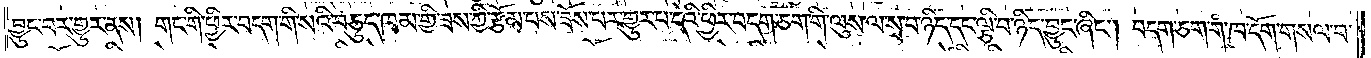བྱུང་བར་གྱུར་ནས། གང་གི་ཕྱིར་བདག་གི་སའི་བཅུད་ཁམ་གྱི་ཟས་ཀྱི་རྩོམ་པས་ཟོས་པར་གྱུར་པ་དེའི་ཕྱིར་བདག་ཅག་གི་ལུས་ལ་སྲ་བ་ཉིད་དང་ལྕི་བ་ཉིད་བྱུང་ཞིང༌། བདག་ཅག་གི་ཁ་དོག་གསལ་བ་
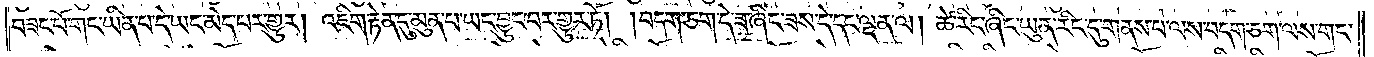བཟང་པོ་གང་ཡིན་པ་དེ་ཡང་མེད་པར་གྱུར། འཇིག་རྟེན་དུ་མུན་པ་ཡང་བྱུང་བར་གྱུར་ཏོ། །བདག་ཅག་དེ་ཟ་ཞིང་ཟས་དེ་དང་ལྡན་ལ། ཚེ་རིང་ཞིང་ཡུན་རིང་དུ་གནས་པ་ལས་བདག་ཅག་ལས་གང་
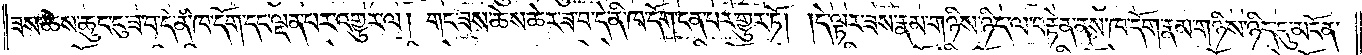ཟས་ཆེས་ཆུང་ངུ་ཟ་བ་དེ་ནི་ཁ་དོག་དང་ལྡན་པར་འགྱུར་ལ། གང་ཟས་ཆེས་ཆེར་ཟ་བ་དེ་ནི་ཁ་དོག་ངན་པར་གྱུར་ཏོ། །དེ་ལྟར་ཟས་རྣམ་གཉིས་ཉིད་ལ་བརྟེན་ནས་ཁ་དོག་རྣམ་གཉིས་ཉིད་དུ་མངོན་
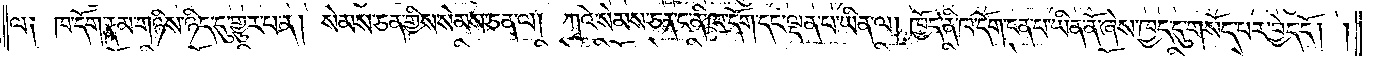ལ༑ ཁ་དོག་རྣམ་གཉིས་ཉིད་དུ་གྱུར་པ་ན། སེམས་ཅན་གྱིས་སེམས་ཅན་ལ། ཀྭའེ་སེམས་ཅན་ང་ནི་ཁ་དོག་དང་ལྡན་པ་ཡིན་ལ། ཁྱོད་ནི་ཁ་དོག་ངན་པ་ཡིན་ནོ་ཞེས་ཁྱད་དུ་གསོད་པར་བྱེད་དོ། །
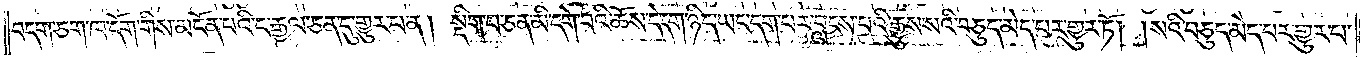བདག་ཅག་ཁ་དོག་གིས་མངོན་པའི་ང་རྒྱལ་ཅན་དུ་གྱུར་པ་ན། སྡིག་པ་ཅན་མི་དགེ་བའི་ཆོས་དེ་དག་ཉིད་ཡང་དག་པར་བླངས་པའི་རྒྱུས་སའི་བཅུད་མེད་པར་གྱུར་ཏོ། །སའི་བཅུད་མེད་པར་གྱུར་པ་
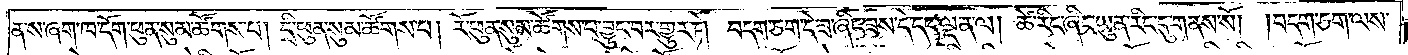ན་ས་ཞག་ཁ་དོག་ཕུན་སུམ་ཚོགས་པ། དྲི་ཕུན་སུམ་ཚོགས་པ། རོ་ཕུན་སུམ་ཚོགས་པ་བྱུང་བར་གྱུར་ཏེ། བདག་ཅག་དེ་ཟ་ཞིང་ཟས་དེ་དང་ལྡན་ལ། ཚེ་རིང་ཞིང་ཡུན་རིང་དུ་གནས་སོ། །བདག་ཅག་ལས་
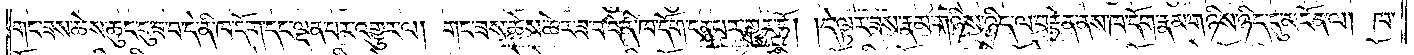གང་ཟས་ཆེས་ཆུང་ངུ་ཟ་བ་དེ་ནི་ཁ་དོག་དང་ལྡན་པར་འགྱུར་ལ། གང་ཟས་ཆེས་ཆེར་ཟ་བ་དེ་ནི་ཁ་དོག་ངན་པར་གྱུར་ཏོ། །དེ་ལྟར་ཟས་རྣམ་གཉིས་ཉིད་ལ་བརྟེན་ནས་ཁ་དོག་རྣམ་གཉིས་ཉིད་དུ་མངོན་ལ། ཁ་
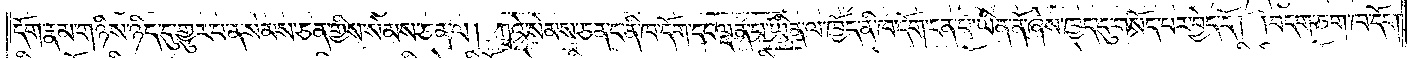དོག་རྣམ་གཉིས་ཉིད་དུ་གྱུར་པ་ན་སེམས་ཅན་གྱིས་སེམས་ཅན་ལ། ཀྭའི་སེམས་ཅན་ནང་ནི་ཁ་དོག་དང་ལྡན་པ་ཡིན་ལ་ཁྱོད་ནི་ཁ་དོག་ངན་པ་ཡིན་ནོ་ཞེས་ཁྱད་དུ་གསོད་པར་བྱེད་དོ། །བདག་ཅག་ཁ་དོག་
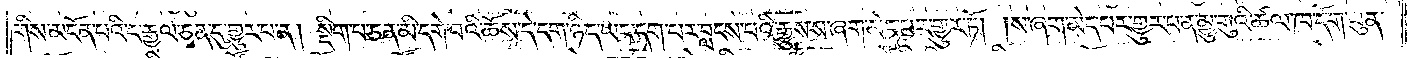གིས་མངོན་པའི་ང་རྒྱལ་ཅན་དུ་གྱུར་པ་ན། སྡིག་པ་ཅན་མི་དགེ་བའི་ཆོས་དེ་དག་ཉིད་ཡང་དག་པར་བླངས་པའི་རྒྱུས་ས་ཞག་མེད་པར་གྱུར་ཏོ། །ས་ཞག་མེད་པར་གྱུར་པ་ན་མྱུ་གུའི་ཚལ་ཁ་དོག་ཕུན་
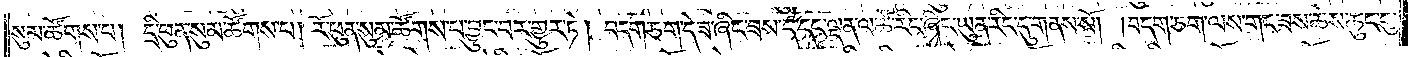སུམ་ཚོགས་པ། དྲི་ཕུན་སུམ་ཚོགས་པ། རོ་ཕུན་སུམ་ཚོགས་པ་བྱུང་བར་གྱུར་ཏེ། བདག་ཅག་དེ་ཟ་ཞིང་ཟས་དེ་དང་ལྡན་ལ་ཚེ་རིང་ཞིང་ཡུན་རིང་དུ་གནས་སོ། །བདག་ཅག་ལས་གང་ཟས་ཆེས་ཆུང་ངུ་
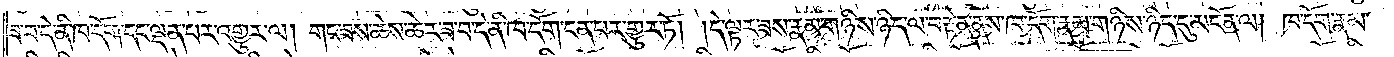ཟ་བ་དེ་ནི་ཁ་དོག་དང་ལྡན་པར་འགྱུར་ལ། གང་ཟས་ཆེས་ཆེར་ཟ་བ་དེ་ནི་ཁ་དོག་ངན་པར་གྱུར་ཏོ། །དེ་ལྟར་ཟས་རྣམ་གཉིས་ཉིད་ལ་བརྟེན་ནས་ཁ་དོག་རྣམ་གཉིས་ཉིད་དུ་མངོན་ལ། ཁ་དོག་རྣམ་
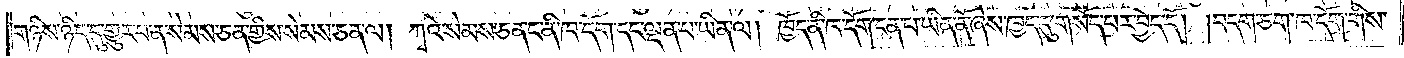གཉིས་ཉིད་དུ་གྱུར་པ་ན་སེམས་ཅན་གྱིས་སེམས་ཅན་ལ། ཀྭའི་སེམས་ཅན་ང་ནི་ཁ་དོག་དང་ལྡན་པ་ཡིན་ལ། ཁྱོད་ནི་ཁ་དོག་ངན་པ་ཡིན་ནོ་ཞེས་ཁྱད་དུ་གསོད་པར་བྱེད་དོ། །བདག་ཅག་ལ་ཁ་དོག་གིས་
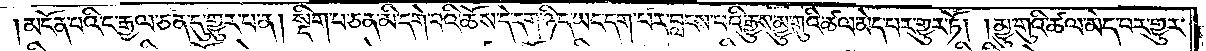མངོན་པའི་ང་རྒྱལ་ཅན་དུ་གྱུར་པ་ན། སྡིག་པ་ཅན་མི་དགེ་བའི་ཆོས་དེ་དག་ཉིད་ཡང་དག་པར་བླངས་པའི་རྒྱུས་མྱུ་གུའི་ཚལ་མེད་པར་གྱུར་ཏོ། །མྱུ་གུའི་ཚལ་མེད་པར་གྱུར་
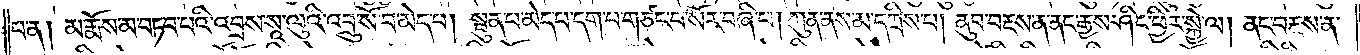བ་ན། མ་རྨོས་མ་བཏབ་པའི་འབྲས་སཱ་ལུའི་འབྲུ་སོ་བ་མེད་པ། སྦུན་པ་མེད་པ་དག་པ་གཙང་བ་སོར་བཞི་པ། ཀུན་ནས་མ་དཀྲིས་པ། ནུབ་བརྔས་ན་ནང་རྒྱས་ཤིང་ཕྱིར་སྐྱེ་ལ། ནང་བརྔས་ན་
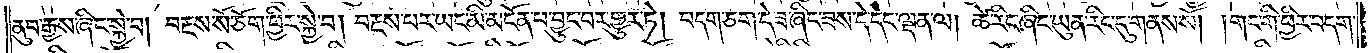ནུབ་རྒྱས་ཞིང་སྐྱེ་བ། བརྔས་སོ་ཅོག་ཕྱིར་སྐྱེ་བ། བརྔས་པར་ཡང་མི་མངོན་པ་བྱུང་བར་གྱུར་ཏེ། བདག་ཅག་དེ་ཟ་ཞིང་ཟས་དེ་དང་ལྡན་ལ། ཚེ་རིང་ཞིང་ཡུན་རིང་དུ་གནས་སོ། །གང་གི་ཕྱིར་བདག་
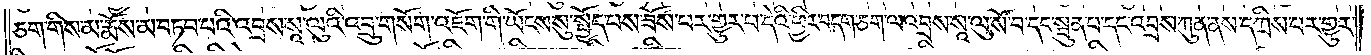ཅག་གིས་མ་རྨོས་མ་བཏབ་པའི་འབྲས་སཱ་ལུའི་འབྲུ་གསོག་འཇོག་གི་ཡོངས་སུ་སྤྱོད་པས་ཟོས་པར་གྱུར་པ་དེའི་ཕྱིར་བདག་ཅག་ལ་འབྲས་སཱ་ལུ་སོ་བ་དང་སྦུན་པ་དང་འབྲས་ཀུན་ནས་དཀྲིས་པར་གྱུར་
